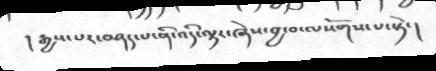།  རྒྱས་པར་བཤད་པ་ནི་འདི་ལྟར་ཞེས་བྱ་བ་ལསོགས་པ་སྟེ་།
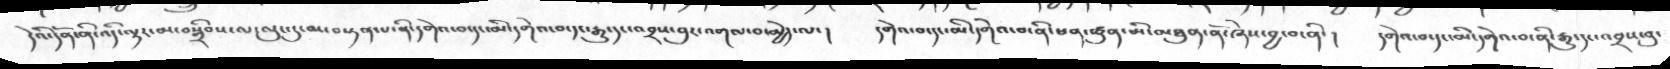དེའི་དོན་ནི་འདི་ལྟར་མ་བསྒྲིབས་ལ་ལུང་དུ་མ་བསྟན་པ་ནི་དགེའ་བ་དང་མི་དགེའ་བ་དང་རྒྱུ་དང་འབྲས་བུར་འགལ་བ་མྱེད་ལ་།  དགེའ་བ་དང་མི་དགེའ་བ་ནི་ཕན་ཚུན་མི་མཐུན་ནོ་ཞེས་བྱ་བ་ནི་།   དགེའ་བ་དང་མི་དགེའ་བ་ནི་རྒྱུ་དང་འབྲས་བུ་
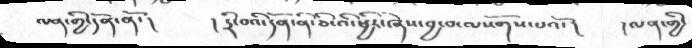ལན་གྱི་དོན་ནོ་་།  ། དྲི་བའི་དོན་ནི་ཅི་འི་ཕྱིར་ཞེས་བྱ་བ་ལསོགས་པའོ་།  ། ལན་གྱི་
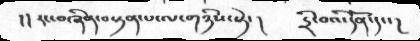།།  རང་བཞིན་བསྟན་པ་ལ་གཉིས་སྟེ་།  དྲི་བའི་དོན་དང་།
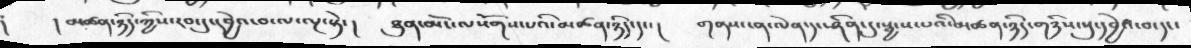།   །མཚན་ཉིད་ཀྱིས་རབ་དུ་དབྱེའ་བ་ལ་ལྔ་སྟེ་།  ཐུན་མོང་ལསོགས་པའི་མཚན་ཉིད་དང་།   གནས་ངན་ལེན་དང་ཤིན་དུ་སྦྱངས་པའི་མཚན་ཉིད་གཉིས་སུ་དབྱེའ་བ་དང་
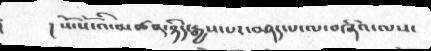།  །སོ་སོ་འི་མཚན་ཉིད་རྒྱས་པར་བཤད་པ་ལ་བཞིའ་ལས་
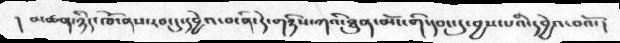། མཚན་ཉིད་ཁོ་ནས་རབ་དུ་དབྱེའ་བ་ནི་དེ་གཉིས་ཀའི་ཐུན་མོང་གི་དབང་དུ་བྱས་པའི་དབྱེའ་བའོ་།
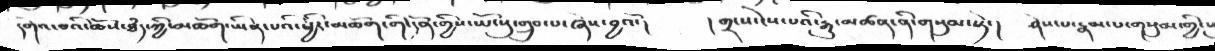དགའ་བའི་ཆོས་ཐཾད་ཀྱི་མཆོག་ཡིན་པའི་ཕྱིར་མཆོག་གི་དོན་གྱིས་ཡོངསུ་གྲུབ་པ་ཞེས་བྱའོ་།    ། གྲངས་ངེས་པའི་རྒྱུ་མཚན་ནི་གསུམ་སྟེ་།   ཤེས་པ་རྣམ་པ་གསུམ་གྱི་
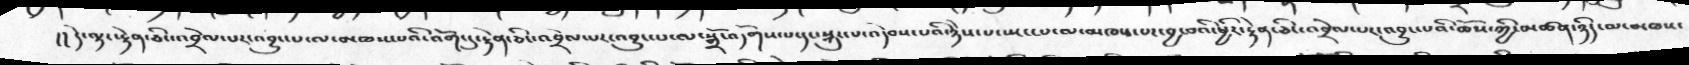།། དེ་ལྟར་རྟེན་ཅིང་འབྲེལ་པར་འབྱུང་པ་ལ་མཁས་པའི་འོག་དུ་རྟེན་ཅིང་འབྲེལ་པར་འབྱུང་པ་ལ་སྒྲོ་འདོགས་པ་དང་སྐུར་པ་འདེབས་པའི་ཉེས་པ་སྤང་པ་ལ་མཁས་པར་བྱ་བའི་ཕྱིར་རྟེན་ཅིང་འབྲེལ་པར་འབྱུང་པའི་ཆོས་ཀྱི་མཚན་ཉིད་ལ་མཁས་
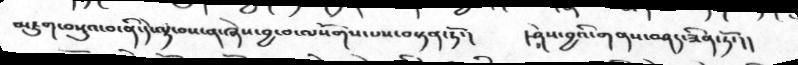མཇུག་བསྡུའ་བ་ནི་དེ་ལྟ་བས་ན་ཞེས་བྱ་བ་ལསོགས་པས་བསྟན་ཏོ་།        །ཤེས་བྱའི་གནས་བཤད་ཟིན་ཏོ་།།
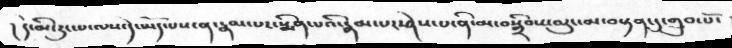། དེ་མི་རུང་པ་ལས་དེ་ཡོད་པས་ན་རྣམ་པར་སྨིན་པའི་རྣམ་པར་ཤེས་པ་ནི་མ་བསྒྲིབས་ལུང་མ་བསྟན་དུ་གྲུབ་པོ་
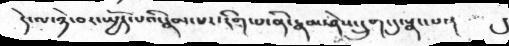དེ་ལ་ཉེ་བར་སྤྱོད་པའི་རྣམ་པར་རིག་པ་ནི་རྣམ་ཤེས་དྲུག་དུ་སྣང་པ་།  དུ
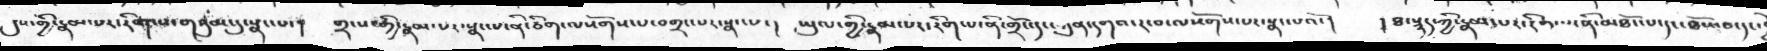དུས་གྱི་རྣམ་པར་རིག་པ་གསུམ་དུ་སྣང་པ་།   གྲངས་གྱི་རྣམ་པར་སྣང་པ་ནི་ཅིག་ལསོགས་པ་བགྲང་པར་སྣང་པ་།   ཡུལ་གྱི་རྣམ་པར་རིག་པ་ནི་གྲོང་དང་་ཀུན་དགའ་ར་བ་ལསོགས་པར་སྣང་པའོ་།   ། ཐ་སྙད་ཀྱི་རྣམ་པར་རིག་པ་ནི་མཐོང་པ་དང་ཐོས་བ་དང་
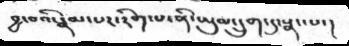བྱ་བའི་རྣམ་པར་རིག་པ་ནི་ཡུལ་དྲུག་དུ་སྣང་པ་།
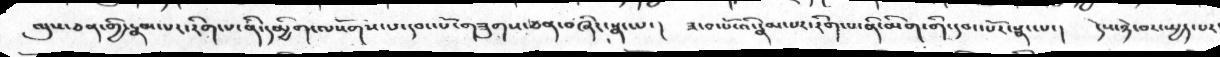ལུས་ཅན་གྱི་རྣམ་པར་རིག་པ་ནི་དམྱིག་ལསོགས་པ་དབང་པོ་གཟུགས་ཅན་བཞིར་སྣང་པ་།  ཟ་བ་པོ་འི་རྣམ་པར་རིག་པ་ནི་མིག་གི་དབང་པོར་སྣང་པ་།    དེས་ཉེ་བར་ཡྱད་པར་
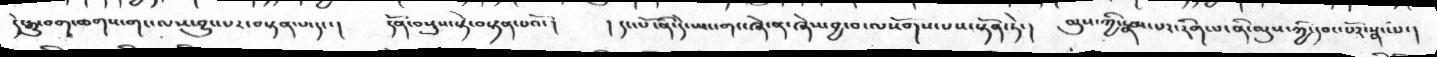དེ་རྒྱུ་་བག་ཆགས་གང་ལས་བྱུང་པར་བསྟན་པ་དང་།      དོན་བསྡུས་སྟེ་བསྟན་པའོ་།      ། དང་པོ་ནི་དེ་ཡང་གང་ཞེ་ན་ཞེས་བྱ་བ་ལསོགས་པས་སྟོན་ཏེ་།     ལུས་ཀྱི་རྣམ་པར་རིག་པ་ནི་ལུས་ཀྱི་དབང་པོར་སྣང་པ་།
